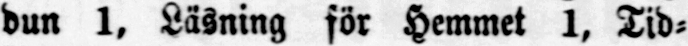dun 1, Läsning för Hemmet 1, Tid-
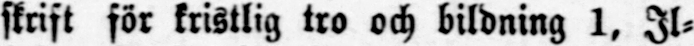skrift för kristlig tro och bildning 1, Il-
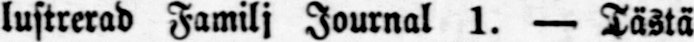lustrerad Familj Journal 1. — Tästä
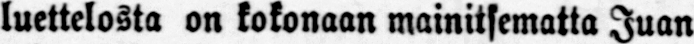luettelosta on kokonaan mainitsematta Juan
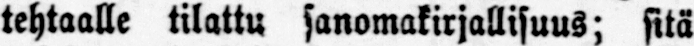tehtaalle tilattu sanomakirjallisuus; sitä
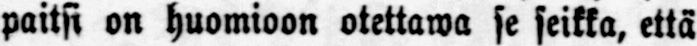paitsi on huomioon otettawa se seikka, että
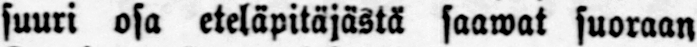suuri osa eteläpitäjästä saawat suoraan
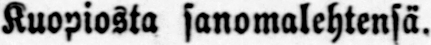Kuopiosta sanomalehtensä.
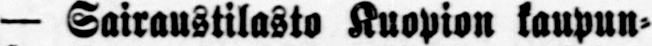— Sairaustilasto Kuopion kaupun-
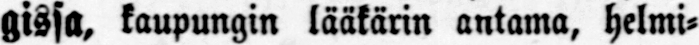gissa, kaupungin lääkärin antama, helmi-
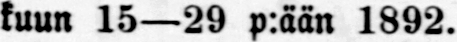kuun 15—29 p:ään 1892.
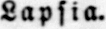Lapsia.
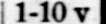1-10 v
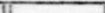0-1 v.
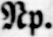Np.
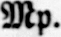Mp.
